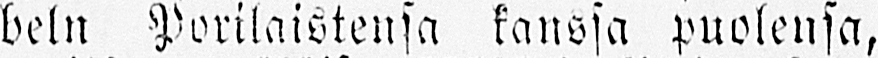beln Porilaistensa kanssa puolensa,
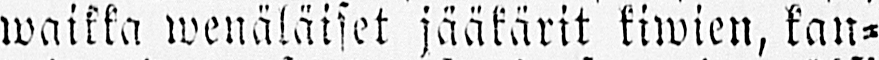waikka wenäläiset jääkärit kiwien, kan-
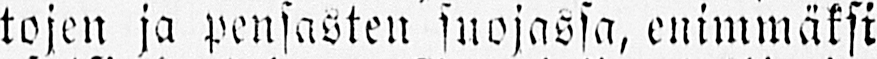tojen ja pensasten suojassa, enimmäksi
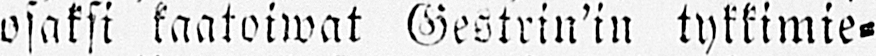osaksi kaatoiwat Gestrin'in tykkimie-
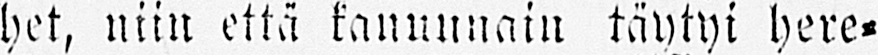het, niin että kanuunain täytyi here-
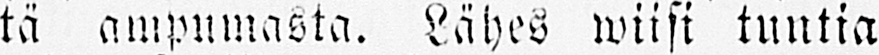tä ampumasta. Lähes wiisi tuntia
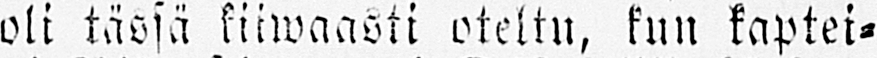oli tässä kiiwaasti oteltu, kun kaptei-
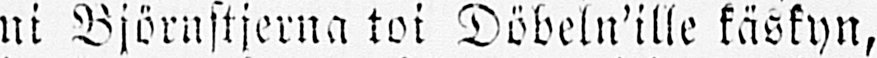ni Björnstjerna toi Döbeln'ille käskyn,
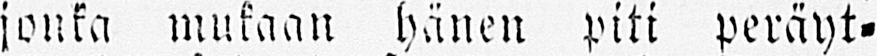jonka mukaan hänen piti peräyt-
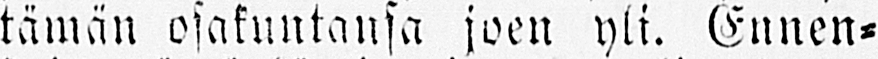tämän osakuntansa joen yli. Ennen-
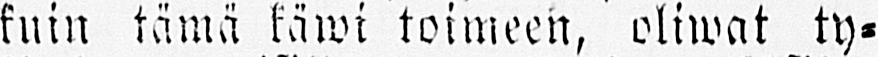kuin tämä käwi toimeen, oliwat ty-
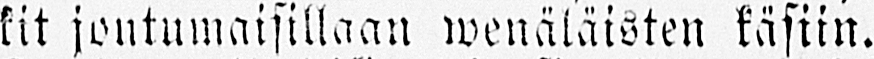kit joutumaisillaan wenäläisten käsiin.
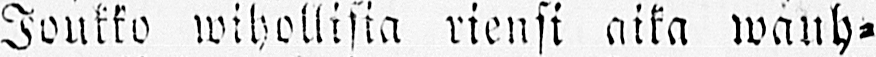Joukko wihollisia riensi aika wauh-
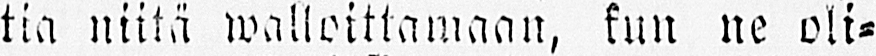tia niitä walloittamaan, kun ne oli-
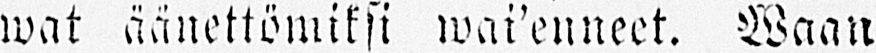wat äänettömiksi wai'enneet. Waan
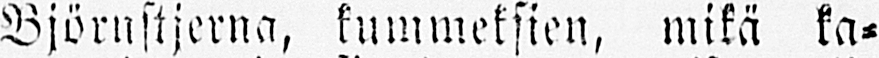Björnstjerna, kummeksien, mikä ka-
